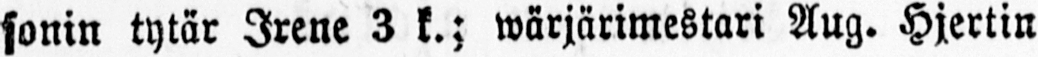sonin tytär Irene 3 k.; wärjärimestari Aug. Hjertin
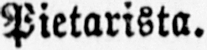Pietarista.
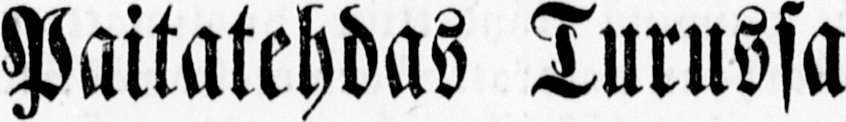Paitatehdas Turussa
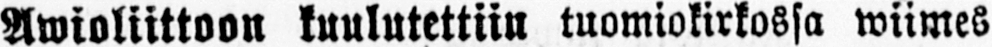Awioliittoon kuulutettiin tuomiokirkossa wiimes
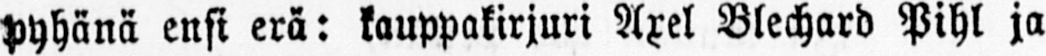pyhänä ensi erä: kauppakirjuri Axel Blechard Pihl ja
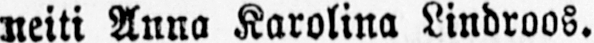neiti Anna Karolina Lindroos.
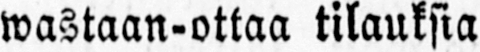wastaan-ottaa tilauksia
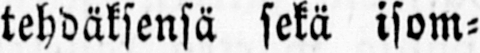tehdäksensä sekä isom-
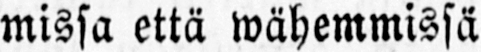missa että wähemmissä
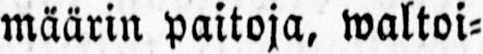määrin paitoja, waltoi-
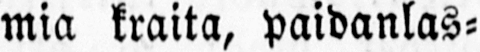mia kraita, paidanlas-
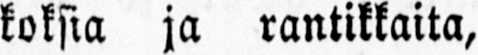koksia ja rantikkaita,
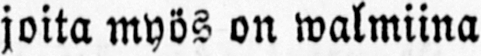joita myös on walmiina
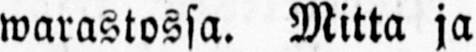warastossa. Mitta ja
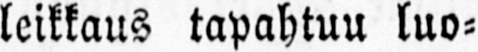leikkaus tapahtuu luo-
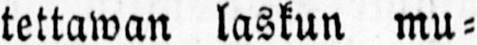tettawan laskun mu-
